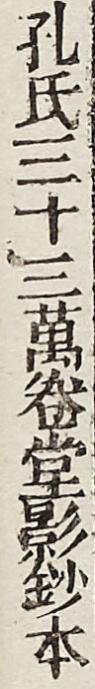孔氏三十三萬卷堂影鈔本
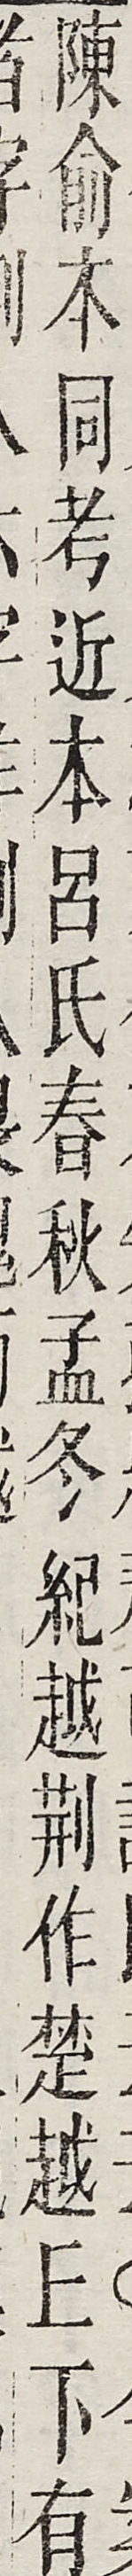陳俞本同考近本呂氏春秋孟冬紀越荊作楚越丘下有
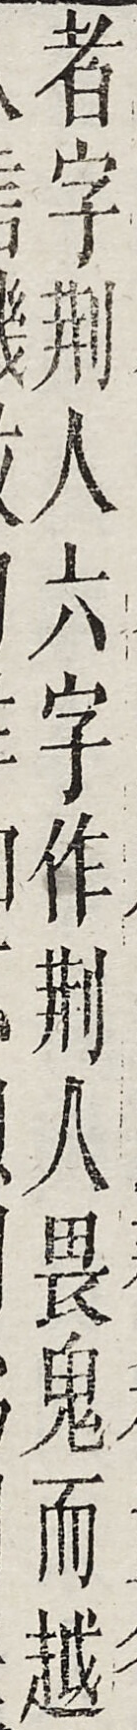者字荊人六字作荊人畏鬼而越
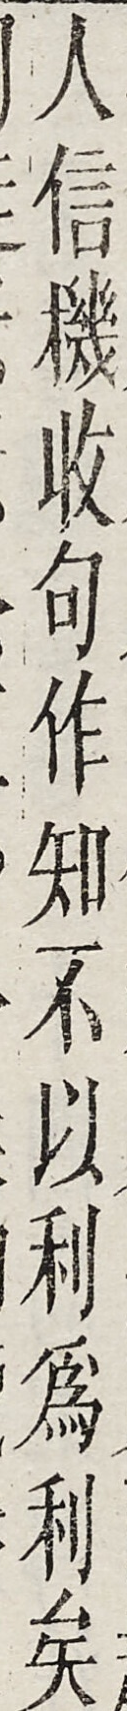人信機收句作知不以利為利矣
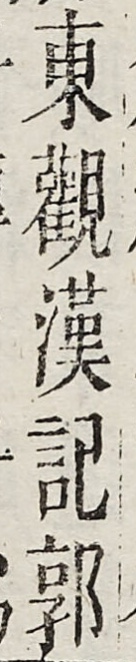東觀漢記郭
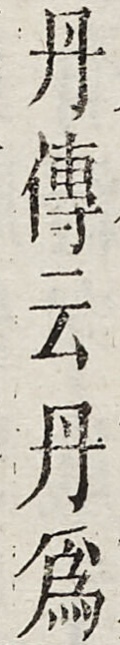丹傳云丹為
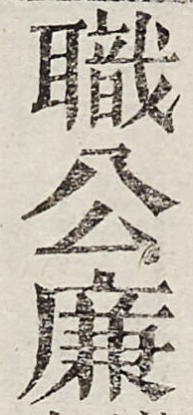職公廉
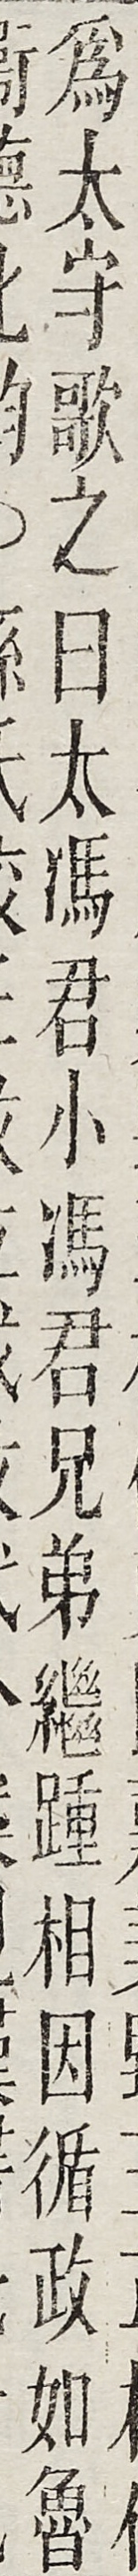為太守歌之曰太馮君小馮君兄弟繼踵相因循政如魯
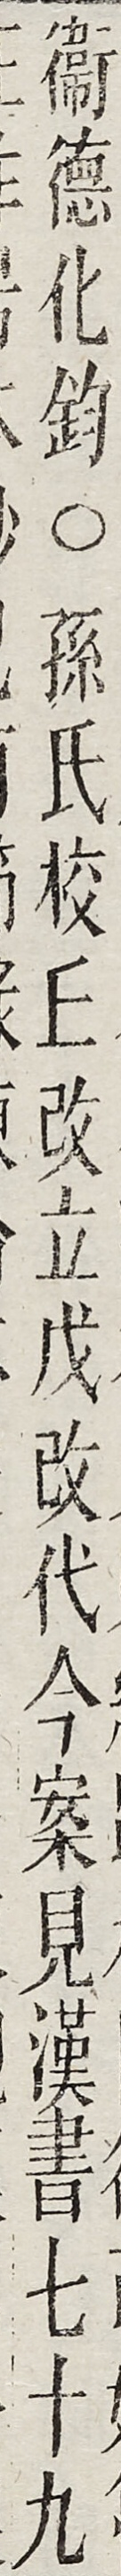衛德化鈞○孫氏校丘改立戊改代今案見漢書七十九
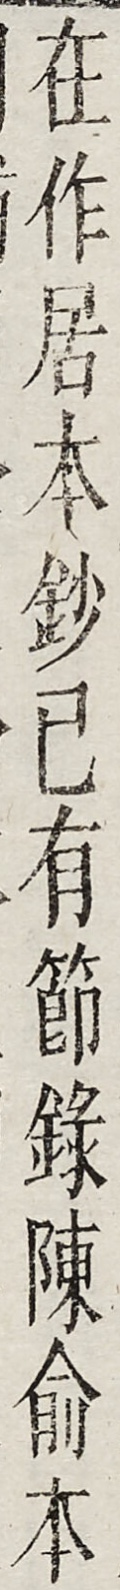在作居本鈔已有節錄陳俞本
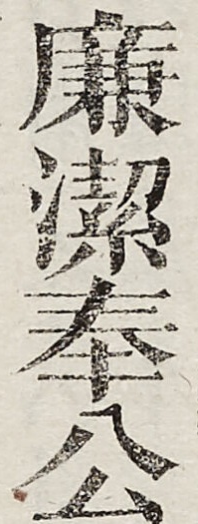廉潔奉公
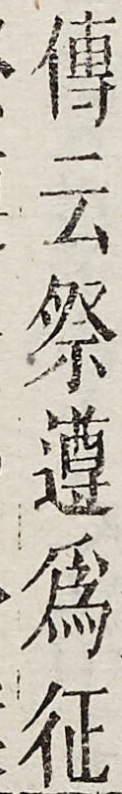傳云祭遵為征
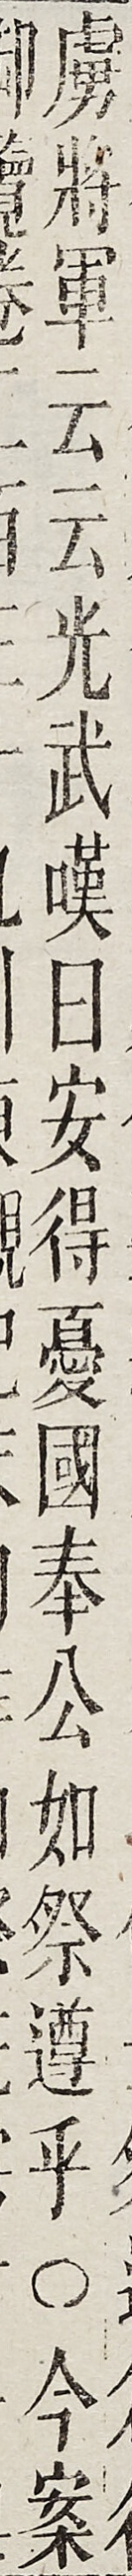虜將軍雲雲光武嘆曰安得憂國奉公如祭遵秋○今案
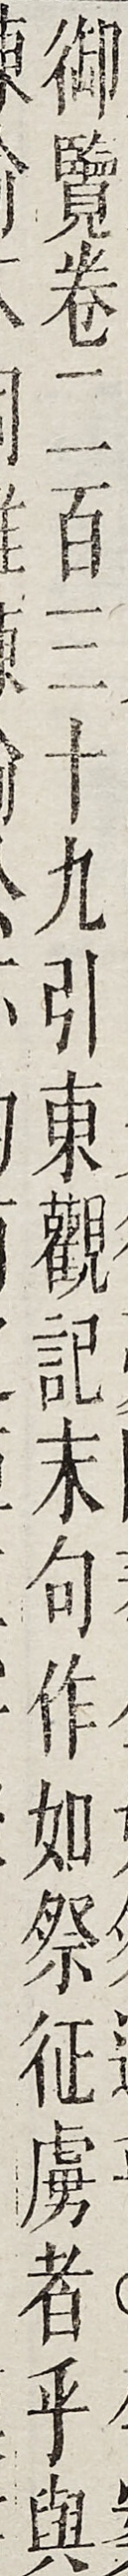御覽卷二百三十九引東觀記末句作如祭征虜者乎與
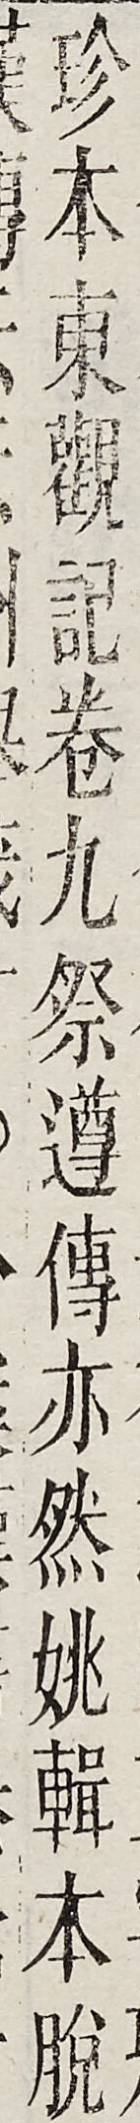珍本東觀記卷九祭遵傳亦然姚輯本脫
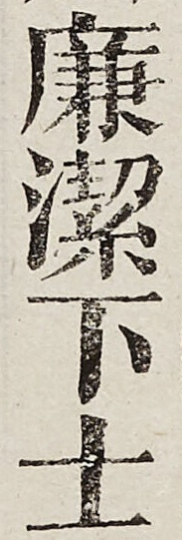廉潔下士
